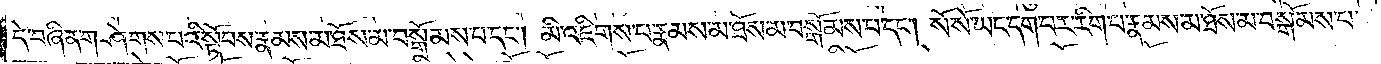དེ་བཞིན་གཤེགས་པའི་སྟོབས་རྣམས་མ་ཐོས་མ་བསྒོམས་པ་དང༌། མི་འཇིགས་པ་རྣམས་མ་ཐོས་མ་བསྒོམས་པ་དང༌། སོ་སོ་ཡང་དག་པར་རིག་པ་རྣམས་མ་ཐོས་མ་བསྒོམས་པ་
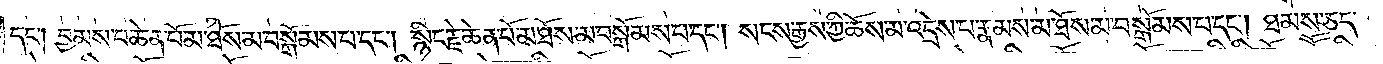དང༌། བྱམས་པ་ཆེན་པོ་མ་ཐོས་མ་བསྒོམས་པ་དང༌། སྙིང་རྗེ་ཆེན་པོ་མ་ཐོས་མ་བསྒོམས་པ་དང༌། སངས་རྒྱས་ཀྱི་ཆོས་མ་འདྲེས་པ་རྣམས་མ་ཐོས་མ་བསྒོམས་པ་དང༌། ཐམས་ཅད་
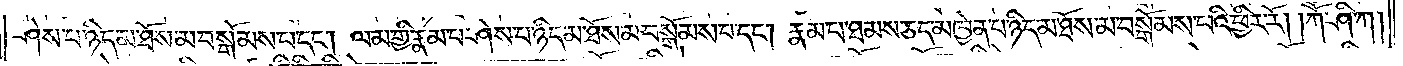ཤེས་པ་ཉིད་མ་ཐོས་མ་བསྒོམས་པ་དང༌། ལམ་གྱི་རྣམ་པ་ཤེས་པ་ཉིད་མ་ཐོས་མ་བསྒོམས་པ་དང༌། རྣམ་པ་ཐམས་ཅད་མཁྱེན་པ་ཉིད་མ་ཐོས་མ་བསྒོམས་པའི་ཕྱིར་རོ། །ཀཽ་ཤི་ཀ།
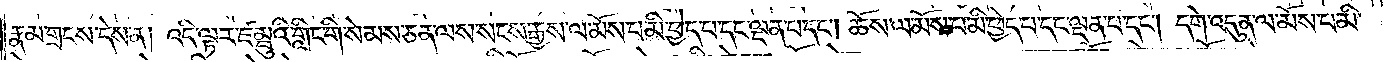རྣམ་གྲངས་དེས་ན། འདི་ལྟར་ཛམྦུའི་གླིང་གི་སེམས་ཅན་ལས་སངས་རྒྱས་ལ་མོས་པ་མི་བྱེད་པ་དང་ལྡན་པ་དང༌། ཆོས་ལ་མོས་པ་མི་ཕྱེད་པ་དང་ལྡན་པ་དང༌། དགེ་འདུན་ལ་མོས་པ་མི་
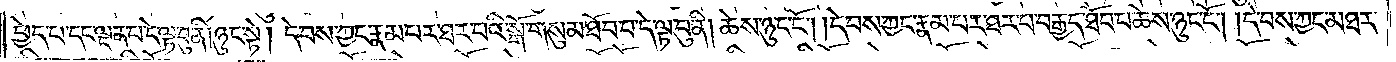ཕྱེད་པ་དང་ལྡན་པ་དེ་ལྟ་བུ་ནི་ཉུང་སྟེ། དེ་བས་ཀྱང་རྣམ་པར་ཐར་པའི་སྒོ་གསུམ་ཐོབ་པ་དེ་ལྟ་བུ་ནི། ཆེས་ཉུང་ངོ༌། །དེ་བས་ཀྱང་རྣམ་པར་ཐར་པ་བརྒྱད་ཐོབ་པ་ཆེས་ཉུང་ངོ༌། །དེ་བས་ཀྱང་མཐར་
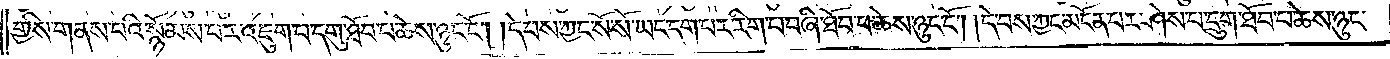གྱིས་གནས་པའི་སྙོམས་པར་འཇུག་པ་དགུ་ཐོབ་པ་ཆེས་ཉུང་ངོ༌། །དེ་བས་ཀྱང་སོ་སོ་ཡང་དག་པར་རིག་པ་བཞི་ཐོབ་པ་ཆེས་ཉུང་ངོ༌། །དེ་བས་ཀྱང་མངོན་པར་ཤེས་པ་དྲུག་ཐོབ་པ་ཆེས་ཉུང་
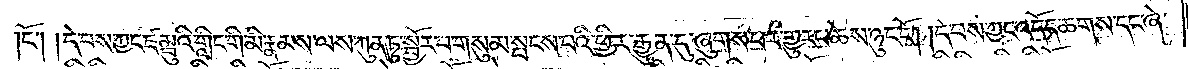ངོ༌། །དེ་བས་ཀྱང་ཛམྦུའི་གླིང་གི་མི་རྣམས་ལས་ཀུན་ཏུ་སྦྱོར་བ་གསུམ་སྤངས་པའི་ཕྱིར། རྒྱུན་དུ་ཞུགས་པར་གྱུར་པ་ཆེས་ཉུང་ངོ༌། །དེ་བས་ཀྱང་འདོད་ཆགས་དང་ཞེ་
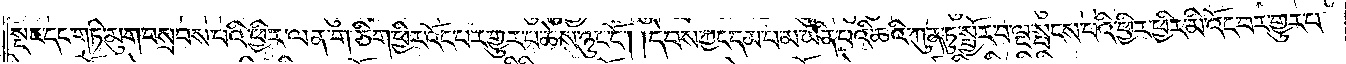སྡང་དང་གཏི་མུག་བསྲབས་པའི་ཕྱིར་ལན་གཅིག་ཕྱིར་འོང་བར་གྱུར་པ་ཆེས་ཉུང་ངོ༌། །དེ་བས་ཀྱང་དམ་པ་མ་ཡིན་པའི་ཆའི་ཀུན་ཏུ་སྦྱོར་བ་ལྔ་སྤངས་པའི་ཕྱིར་ཕྱིར་མི་འོང་བར་གྱུར་བ་
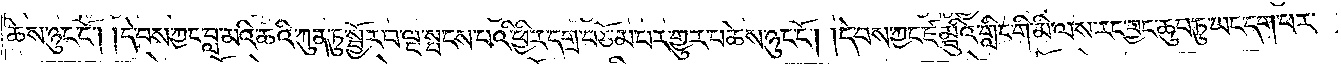ཆེས་ཉུང་ངོ༌། །དེ་བས་ཀྱང་བླ་མའི་ཆའི་ཀུན་ཏུ་སྦྱོར་བ་ལྔ་སྤངས་པའི་ཕྱིར་དགྲ་བཅོམ་པར་གྱུར་པ་ཆེས་ཉུང་ངོ༌། །དེ་བས་ཀྱང་ཛམྦུའི་གླིང་གི་མི་ལས་རང་བྱང་ཆུབ་ཏུ་ཡང་དག་པར་
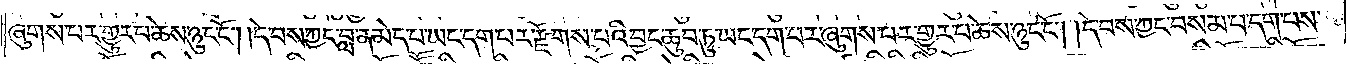ཞུགས་པར་གྱུར་པ་ཆེས་ཉུང་ངོ༌། །དེ་བས་ཀྱང་བླ་ན་མེད་པ་ཡང་དག་པར་རྫོགས་པའི་བྱང་ཆུབ་ཏུ་ཡང་དག་པར་ཞུགས་པར་གྱུར་པ་ཆེས་ཉུང་ངོ༌། །དེ་བས་ཀྱང་བསམ་པ་དག་པས་
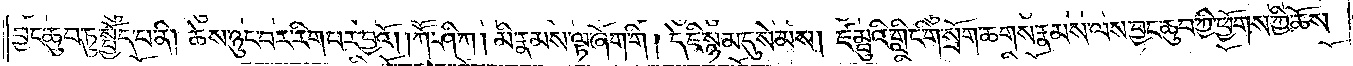བྱང་ཆུབ་ཏུ་སྤྱོད་པ་ནི། ཆེས་ཉུང་བར་རིག་པར་བྱའོ། །ཀཽ་ཤི་ཀ། མི་རྣམས་ལྟ་ཞོག་གི །དེ་ཇི་སྙམ་དུ་སེམས། ཛམྦུའི་གླིང་གི་སྲོག་ཆགས་རྣམས་ལས་བྱང་ཆུབ་ཀྱི་ཕྱོགས་ཀྱི་ཆོས་
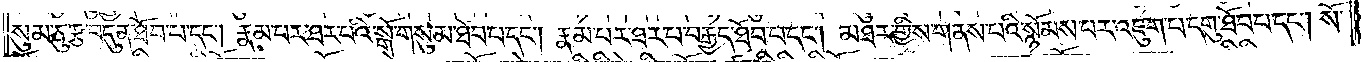སུམ་ཅུ་རྩ་བདུན་ཐོབ་པ་དང༌། རྣམ་པར་ཐར་པའི་སྒོ་གསུམ་ཐོབ་པ་དང༌། རྣམ་པར་ཐར་པ་བརྒྱད་ཐོབ་པ་དང༌། མཐར་གྱིས་གནས་པའི་སྙོམས་པར་འཇུག་པ་དགུ་ཐོབ་པ་དང༌། སོ་
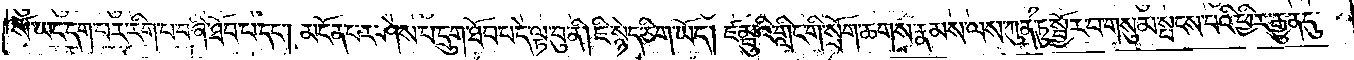སོ་ཡང་དག་པར་རིག་པ་བཞི་ཐོབ་པ་དང༌། མངོན་པར་ཤེས་པ་དྲུག་ཐོབ་པ་དེ་ལྟ་བུ་ནི། ཇི་སྙེད་ཅིག་ཡོད། ཛམྦུའི་གླིང་གི་སྲོག་ཆགས་རྣམས་ལས་ཀུན་ཏུ་སྦྱོར་བ་གསུམ་སྤངས་པའི་ཕྱིར་རྒྱུན་དུ་
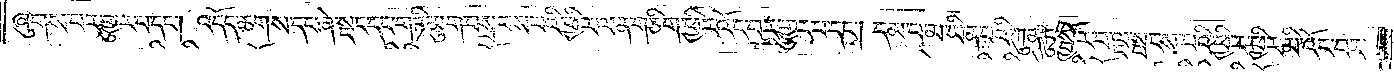ཞུགས་པར་གྱུར་པ་དང༌། འདོད་ཆགས་དང་ཞེ་སྡང་དང་གཏི་མུག་བསྲབས་པའི་ཕྱིར་ལན་གཅིག་ཕྱིར་འོང་བར་གྱུར་པ་དང༌། དམ་པ་མ་ཡིན་པའི་ཀུན་ཏུ་སྦྱོར་བ་ལྔ་སྤངས་པའི་ཕྱིར་ཕྱིར་མི་འོང་བར་
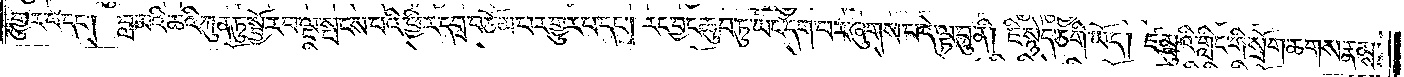གྱུར་པ་དང༌། བླ་མའི་ཆའི་ཀུན་ཏུ་སྦྱོར་བ་ལྔ་སྤངས་པའི་ཕྱིར་དགྲ་བཅོམ་པར་གྱུར་པ་དང༌། རང་བྱང་ཆུབ་ཏུ་ཡང་དག་པར་ཞུགས་པ་དེ་ལྟ་བུ་ནི། ཇི་སྙེད་ཅིག་ཡོད། ཛམྦུའི་གླིང་གི་སྲོག་ཆགས་རྣམས་
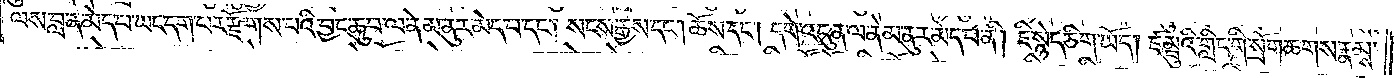ལས་བླ་ན་མེད་པ་ཡང་དག་པར་རྫོགས་པའི་བྱང་ཆུབ་ལ་ནེམ་ནུར་མེད་པ་དང༌། སངས་རྒྱས་དང༌། ཆོས་དང༌། དགེ་འདུན་ལ་ནེམ་ནུར་མེད་པ་ནི། ཇི་སྙེད་ཅིག་ཡོད། ཛམྦུའི་གླིང་གི་སྲོག་ཆགས་རྣམས་
